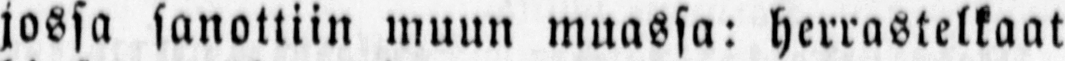jossa sanottiin muun muassa: herrastelkaat
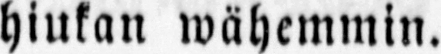hiukan wähemmin.
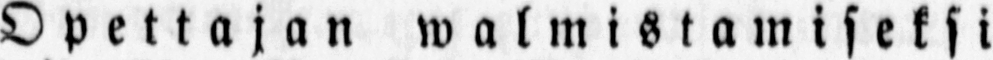Opettajan walmistamiseksi
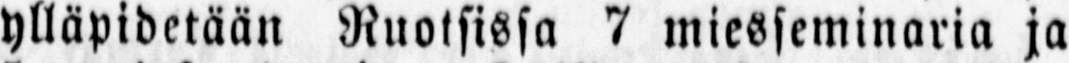ylläpidetään Ruotsissa 7 miesseminaria ja
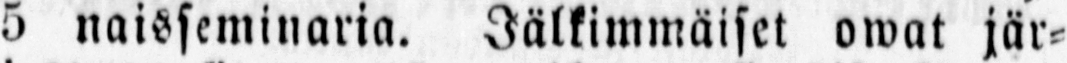5 naisseminaria. Jälkimmäiset owat jär-
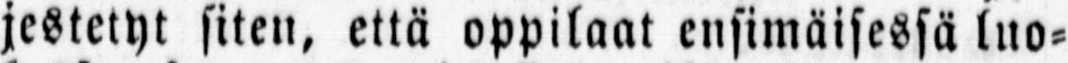jestetyt siten, että oppilaat ensimäisessä luo-
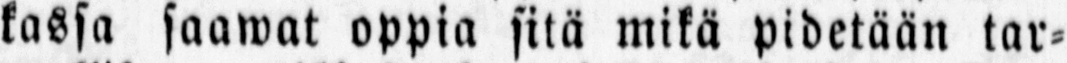kassa saawat oppia sitä mikä pidetään tar-
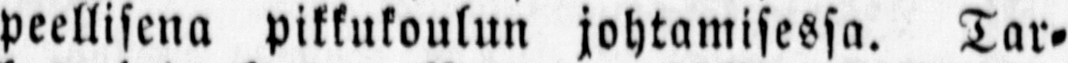peellisena pikkukoulun johtamisessa. Tar-
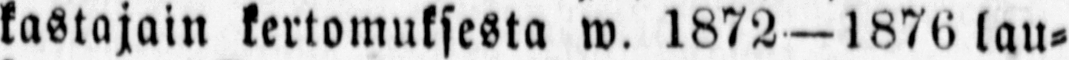kastajain kertomuksesta w. 1872 — 1876 lau-
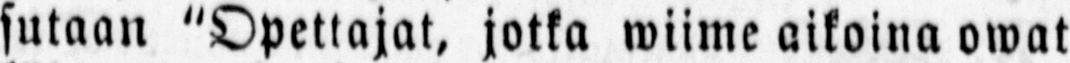sutaan "Opettajat, jotka wiime aikoina owat
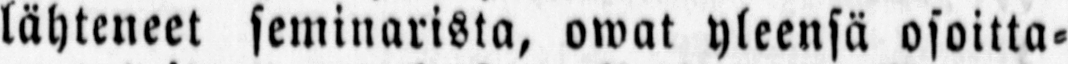lähteneet seminarista, owat yleensä osoitta-
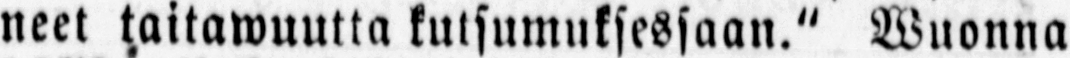neet taitawuutta kutsumuksessaan." Wuonna
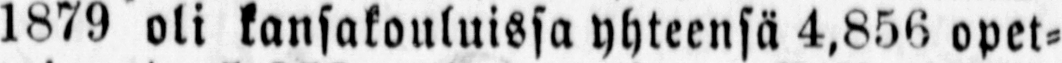1879 oli kansakouluissa yhteensä 4,856 opet-
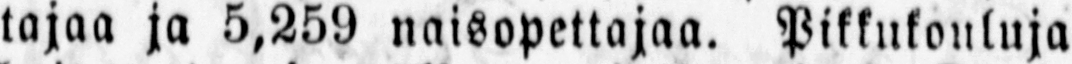tajaa ja 5,259 naisopettajaa. Pikkukouluja
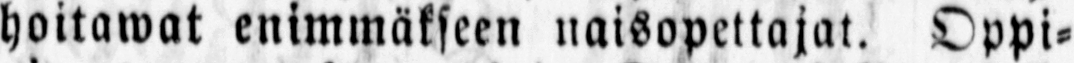hoitawat enimmäkseen naisopettajat. Oppi-
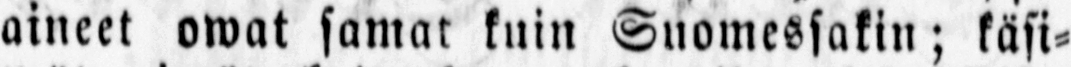aineet owat samat kuin Suomessakin; käsi-
